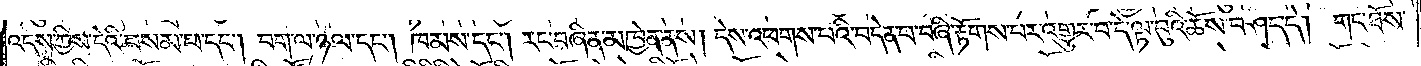འདས་ཀྱིས་དེའི་བསམ་པ་དང༌། བག་ལ་ཉལ་དང༌། ཁམས་དང༌། རང་བཞིན་མཁྱེན་ནས། དེས་འཕགས་པའི་བདེན་པ་བཞི་རྟོགས་པར་འགྱུར་བ་དེ་ལྟ་བུའི་ཆོས་བཤད་དེ། གང་ཐོས་
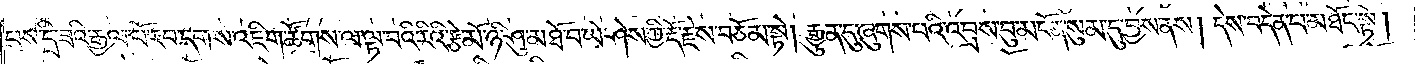པས་དྲི་ཟའི་རྒྱལ་པོ་རབ་དགས་འཇིག་ཚོགས་ལ་ལྟ་བའི་རིའི་རྩེ་མོ་ཉི་ཤུ་མཐོ་བ་ཡེ་ཤེས་ཀྱི་རྡོ་རྗེས་བཅོམ་སྟེ། རྒྱུན་དུ་ཞུགས་པའི་འབྲས་བུ་མངོན་སུམ་དུ་བྱས་ནས། དེས་བདེན་པ་མཐོང་སྟེ།
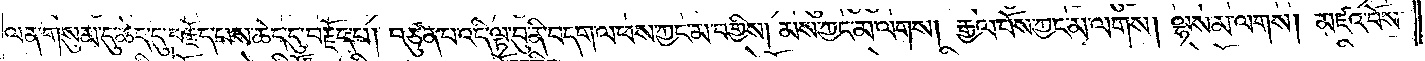ལན་གསུམ་དུ་ཆེད་དུ་བརྗོད་པས་ཆེད་དུ་བརྗོད་པ། བཙུན་པ་འདི་ལྟ་བུ་ནི་བདག་ལ་ཕས་ཀྱང་མ་བགྱིས། མས་ཀྱང་མ་ལགས། རྒྱལ་པོས་ཀྱང་མ་ལགས། ལྷས་མ་ལགས། མཛའ་བོས་
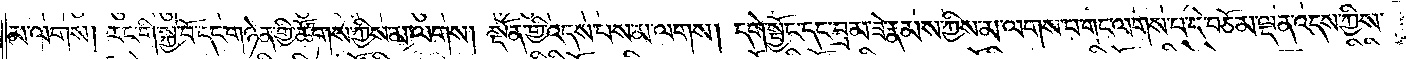མ་ལགས། རང་གི་སྐྱེ་བོ་དང་གཉེན་གྱི་ཚོགས་ཀྱིས་མ་ལགས། སྔོན་གྱི་འདས་པས་མ་ལགས། དགེ་སྦྱོང་དང་བྲམ་ཟེ་རྣམས་ཀྱིས་མ་ལགས་པ་གང་ལགས་པ་དེ་བཅོམ་ལྡན་འདས་ཀྱིས་
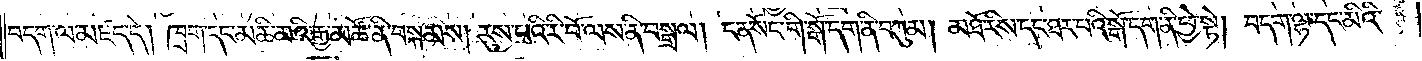བདག་ལ་མཛད་དེ། ཁྲག་དང་མཆི་མའི་རྒྱ་མཚོ་ནི་བསྐམས། རུས་པའི་རི་བོ་ལས་ནི་བསྒྲལ། ངན་སོང་གི་སྒོ་དག་ནི་བཀུམ། མཐོ་རིས་དང་ཐར་པའི་སྒོ་དག་ནི་ཕྱེ་སྟེ། བདག་ལྷ་དང་མིའི་
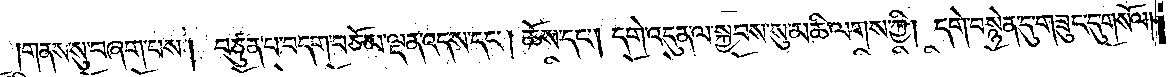གནས་སུ་བཞག་པས། བཙུན་པ་བདག་བཅོམ་ལྡན་འདས་དང༌། ཆོས་དང༌། དགེ་འདུན་ལ་སྐྱབས་སུ་མཆི་ལགས་ཀྱི། དགེ་བསྙེན་དུ་གཟུང་དུ་གསོལ་
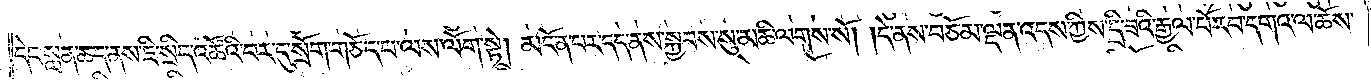དེང་སླན་ཆད་ནས་ཇི་སྲིད་འཚོའི་བར་དུ་སྲོག་གཅོད་པ་ལས་ལོག་སྟེ། མངོན་པར་དད་ནས་སྐྱབས་སུ་མཆི་ལགས་སོ། །དེ་ནས་བཅོམ་ལྡན་འདས་ཀྱིས་དྲི་ཟའི་རྒྱལ་པོ་རབ་དགའ་ལ་ཆོས་
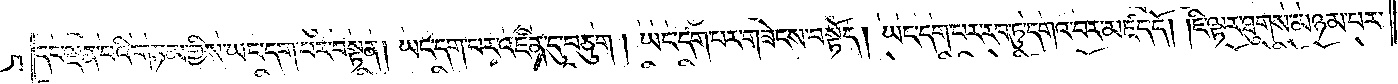དང་ལྡན་པའི་གཏམ་གྱིས་ཡང་དག་པར་བསྟན། ཡང་དག་པར་འཛིན་དུ་བཅུག །ཡང་དག་པར་གཟེངས་བསྟོད། ཡང་དག་པར་རབ་ཏུ་དགའ་བར་མཛད་དོ། །ཇི་ལྟར་ཐུགས་མཉམ་པར་
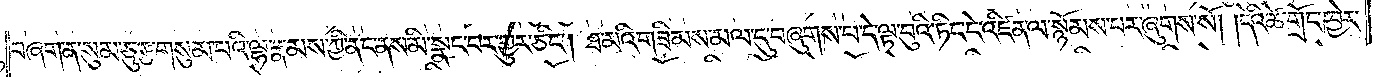བཞག་ན་སུམ་ཅུ་རྩ་གསུམ་པའི་ལྷ་རྣམས་ཀྱི་ནང་ནས་མི་སྣང་བར་གྱུར་ཅིང༌། ཐ་མའི་གཟིམས་མལ་དུ་བཞུགས་པ་དེ་ལྟ་བུའི་ཏིང་ངེ་འཛིན་ལ་སྙོམས་པར་ཞུགས་སོ། །དེའི་ཚེ་གྲོང་ཁྱེར་
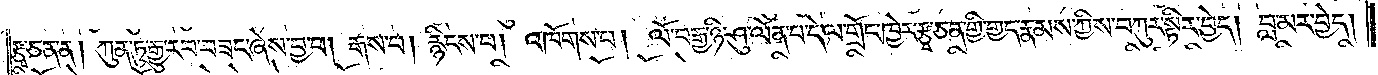རྩྭ་ཅན་ན། ཀུན་ཏུ་རྒྱུ་རབ་བཟང་ཞེས་བྱ་བ། རྒས་པ། རྙིངས་པ། འཁོགས་པ། ལོ་བརྒྱ་ཉི་ཤུ་ལོན་པ་དེ་ལ་གྲོང་ཁྱེར་རྩྭ་ཅན་གྱི་གྱད་རྣམས་ཀྱིས་བཀུར་སྟིར་བྱེད། བླ་མར་བྱེད།
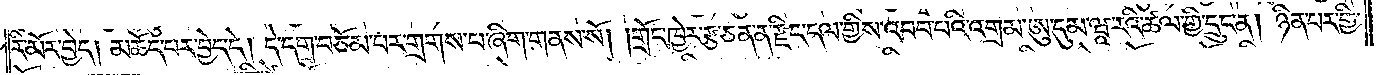རི་མོར་བྱེད། མཆོད་པར་བྱེད་དེ། དེ་དགྲ་བཅོམ་པར་གྲགས་པ་ཞིག་གནས་སོ། །གྲོང་ཁྱེར་རྩ་ཅན་ན་རྫིང་དལ་གྱིས་འབབ་པའི་འགྲམ་ཨུ་དུ་མ་ཝཱ་རའི་ཚལ་གྱི་དྲུང་ན། ཉིན་པར་གྱི་
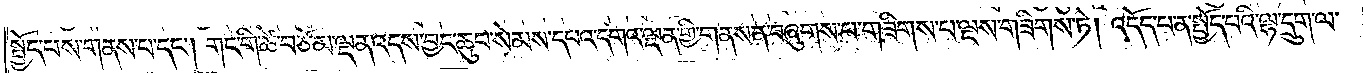སྤྱོད་པས་གནས་པ་དང༌། གང་གི་ཚེ་བཅོམ་ལྡན་འདས་བྱང་ཆུབ་སེམས་དཔའ་དགའ་ལྡན་གྱི་གནས་ན་བཞུགས་པ་གཟིགས་པ་ལྔས་གཟིགས་ཏེ། འདོད་པ་ན་སྤྱོད་པའི་ལྷ་དྲུག་ལ་
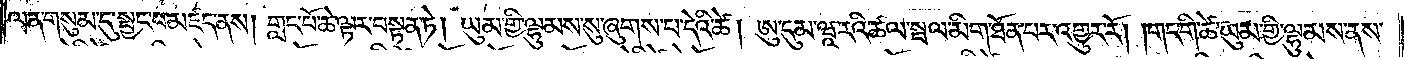ལན་གསུམ་དུ་སྦྱང་པ་མཛད་ནས། གླང་པོ་ཆེ་ལྟར་བསྟན་ཏེ། ཡུམ་གྱི་ལྷུམས་སུ་ཞུགས་པ་དེའི་ཚེ། ཨུ་དུམ་ཝཱ་རའི་ཚལ་སྦལ་མིག་ཐོན་པར་འགྱུར་རོ། །གང་གི་ཚེ་ཡུམ་གྱི་ལྷུམས་ནས་
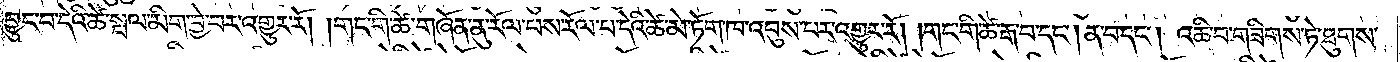བྱུང་བ་དེའི་ཚེ་སྦལ་མིག་བྱེ་བར་འགྱུར་རོ། །གང་གི་ཚེ་གཞོན་ནུ་རོལ་པས་རོལ་པ་དེའི་ཚེ་མེ་ཏོག་ཁ་འབུས་པར་འགྱུར་རོ། །གང་གི་ཚེ་རྒ་བ་དང༌། ན་བ་དང༌། འཆི་བ་གཟིགས་ཏེ་ཐུགས་
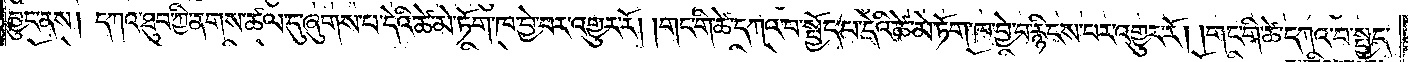བྱུང་ནས། དཀའ་ཐུབ་ཀྱི་ནགས་ཚལ་དུ་ཞུགས་པ་དེའི་ཚེ་མེ་ཏོག་ཁ་བྱེ་བར་འགྱུར་རོ། །གང་གི་ཚེ་དཀའ་བ་སྤྱོད་པ་དེའི་ཚེ་མེ་ཏོག་ཁ་བྱེ་བ་རྙིངས་པར་འགྱུར་རོ། །གང་གི་ཚེ་དཀའ་བ་སྤྱད་
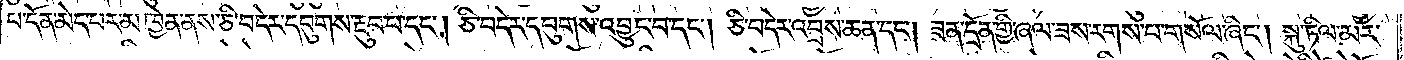པ་དོན་མེད་པར་མཁྱེན་ནས་ཅི་བདེར་དབུགས་རྔུབ་པ་དང༌། ཅི་བདེར་དབུགས་འབྱུང་བ་དང༌། ཅི་བདེར་འབྲས་ཆན་དང༌། ཟན་དྲོན་གྱི་ཞལ་ཟས་རགས་པ་གསོལ་ཞིང༌། སྐུ་ཏིལ་མར་
